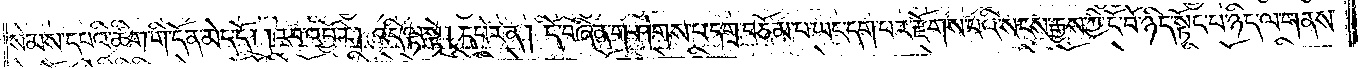སེམས་དཔའི་ཚིག་གི་དོན་མེད་དོ། །རབ་འབྱོར། འདི་ལྟ་སྟེ། དཔེར་ན། དེ་བཞིན་གཤེགས་པ་དགྲ་བཅོམ་པ་ཡང་དག་པར་རྫོགས་པའི་སངས་རྒྱས་ཀྱི་ངོ་བོ་ཉིད་སྟོང་པ་ཉིད་ལ་གནས་
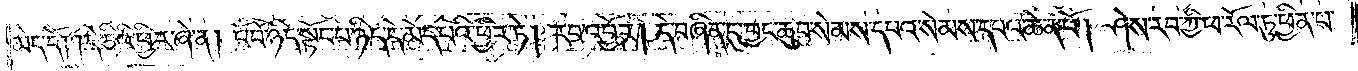མེད་དོ། །དེ་ཅིའི་ཕྱིར་ཞེ་ན། ངོ་བོ་ཉིད་སྟོང་པ་ཉིད་དེ་མེད་པའི་ཕྱིར་ཏེ། རབ་འབྱོར། དེ་བཞིན་དུ་བྱང་ཆུབ་སེམས་དཔའ་སེམས་དཔའ་ཆེན་པོ། ཤེས་རབ་ཀྱི་ཕ་རོལ་ཏུ་ཕྱིན་པ་
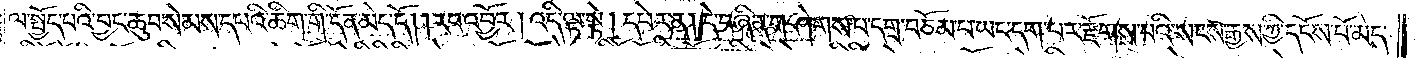ལ་སྤྱོད་པའི་བྱང་ཆུབ་སེམས་དཔའི་ཚིག་གི་དོན་མེད་དོ། །རབ་འབྱོར། འདི་ལྟ་སྟེ། དཔེར་ན། དེ་བཞིན་གཤེགས་པ་དགྲ་བཅོམ་པ་ཡང་དག་པར་རྫོགས་པའི་སངས་རྒྱས་ཀྱི་དངོས་པོ་མེད་
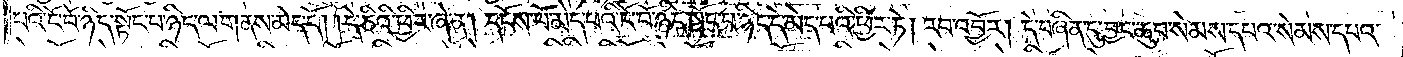པའི་ངོ་བོ་ཉིད་སྟོང་པ་ཉིད་ལ་གནས་མེད་དོ། །དེ་ཅིའི་ཕྱིར་ཞེ་ན། དངོས་པོ་མེད་པའི་ངོ་བོ་ཉིད་སྟོང་པ་ཉིད་དེ་མེད་པའི་ཕྱིར་ཏེ། རབ་འབྱོར། དེ་བཞིན་དུ་བྱང་ཆུབ་སེམས་དཔའ་སེམས་དཔའ་
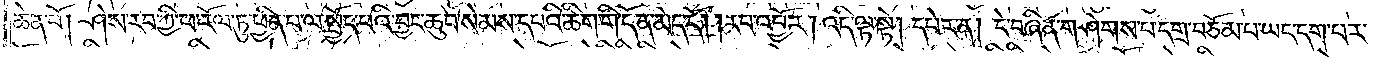ཆེན་པོ། ཤེས་རབ་ཀྱི་ཕ་རོལ་ཏུ་ཕྱིན་པ་ལ་སྤྱོད་པའི་བྱང་ཆུབ་སེམས་དཔའི་ཚིག་གི་དོན་མེད་དོ། །རབ་འབྱོར། འདི་ལྟ་སྟེ། དཔེར་ན། དེ་བཞིན་གཤེགས་པ་དགྲ་བཅོམ་པ་ཡང་དག་པར་
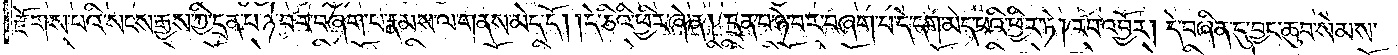རྫོགས་པའི་སངས་རྒྱས་ཀྱི་དྲན་པ་ཉེ་བར་བཞག་པ་རྣམས་ལ་གནས་མེད་དོ། །དེ་ཅིའི་ཕྱིར་ཞེ་ན། དྲན་པ་ཉེ་བར་བཞག་པ་དེ་དག་མེད་པའི་ཕྱིར་ཏེ། རབ་འབྱོར། དེ་བཞིན་དུ་བྱང་ཆུབ་སེམས་
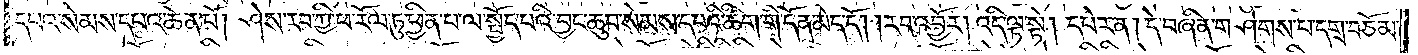དཔའ་སེམས་དཔའ་ཆེན་པོ། ཤེས་རབ་ཀྱི་ཕ་རོལ་ཏུ་ཕྱིན་པ་ལ་སྤྱོད་པའི་བྱང་ཆུབ་སེམས་དཔའི་ཚིག་གི་དོན་མེད་དོ། །རབ་འབྱོར། འདི་ལྟ་སྟེ། དཔེར་ན། དེ་བཞིན་གཤེགས་པ་དགྲ་བཅོམ་
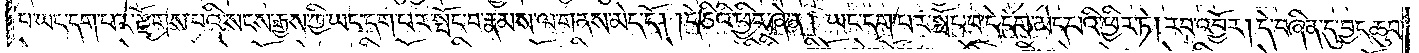པ་ཡང་དག་པར་རྫོགས་པའི་སངས་རྒྱས་ཀྱི་ཡང་དག་པར་སྤོང་བ་རྣམས་ལ་གནས་མེད་དོ། །དེ་ཅིའི་ཕྱིར་ཞེ་ན། ཡང་དག་པར་སྤོང་བ་དེ་དག་མེད་པའི་ཕྱིར་ཏེ། རབ་འབྱོར། དེ་བཞིན་དུ་བྱང་ཆུབ་
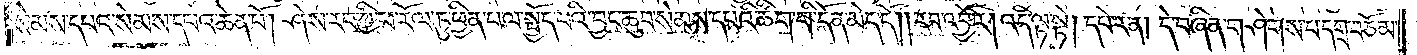སེམས་དཔའ་སེམས་དཔའ་ཆེན་པོ། ཤེས་རབ་ཀྱི་ཕ་རོལ་ཏུ་ཕྱིན་པ་ལ་སྤྱོད་པའི་བྱང་ཆུབ་སེམས་དཔའི་ཚིག་གི་དོན་མེད་དོ། །རབ་འབྱོར། འདི་ལྟ་སྟེ། དཔེར་ན། དེ་བཞིན་གཤེགས་པ་དགྲ་བཅོམ་
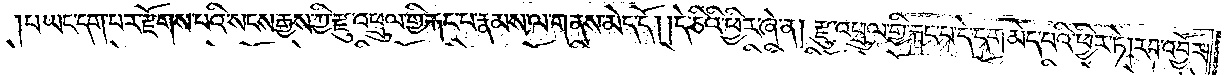པ་ཡང་དག་པར་རྫོགས་པའི་སངས་རྒྱས་ཀྱི་རྫུ་འཕྲུལ་གྱི་རྐང་པ་རྣམས་ལ་གནས་མེད་དོ། །དེ་ཅིའི་ཕྱིར་ཞེ་ན། རྫུ་འཕྲུལ་གྱི་རྐང་པ་དེ་དག་མེད་པའི་ཕྱིར་ཏེ། རབ་འབྱོར།
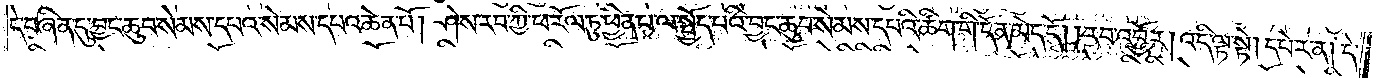དེ་བཞིན་དུ་བྱང་ཆུབ་སེམས་དཔའ་སེམས་དཔའ་ཆེན་པོ། ཤེས་རབ་ཀྱི་ཕ་རོལ་ཏུ་ཕྱིན་པ་ལ་སྤྱོད་པའི་བྱང་ཆུབ་སེམས་དཔའི་ཚིག་གི་དོན་མེད་དོ། །རབ་འབྱོར། འདི་ལྟ་སྟེ། དཔེར་ན། དེ་
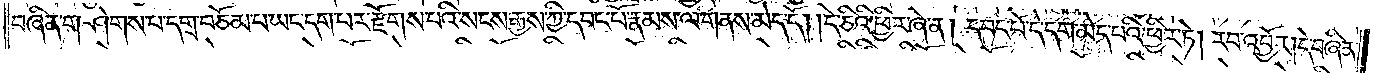བཞིན་གཤེགས་པ་དགྲ་བཅོམ་པ་ཡང་དག་པར་རྫོགས་པའི་སངས་རྒྱས་ཀྱི་དབང་པོ་རྣམས་ལ་གནས་མེད་དོ། །དེ་ཅིའི་ཕྱིར་ཞེ་ན། དབང་པོ་དེ་དག་མེད་པའི་ཕྱིར་ཏེ། རབ་འབྱོར། དེ་བཞིན་
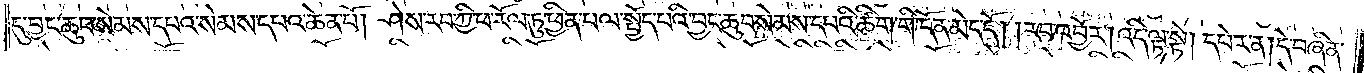དུ་བྱང་ཆུབ་སེམས་དཔའ་སེམས་དཔའ་ཆེན་པོ། ཤེས་རབ་ཀྱི་ཕ་རོལ་ཏུ་ཕྱིན་པ་ལ་སྤྱོད་པའི་བྱང་ཆུབ་སེམས་དཔའི་ཚིག་གི་དོན་མེད་དོ། །རབ་འབྱོར། འདི་ལྟ་སྟེ། དཔེར་ན། དེ་བཞིན་
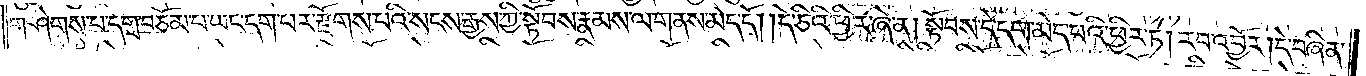གཤེགས་པ་དགྲ་བཅོམ་པ་ཡང་དག་པར་རྫོགས་པའི་སངས་རྒྱས་ཀྱི་སྟོབས་རྣམས་ལ་གནས་མེད་དོ། །དེ་ཅིའི་ཕྱིར་ཞེ་ན། སྟོབས་དེ་དག་མེད་པའི་ཕྱིར་ཏེ། རབ་འབྱོར། དེ་བཞིན་
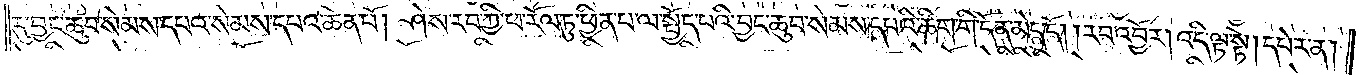དུ་བྱང་ཆུབ་སེམས་དཔའ་སེམས་དཔའ་ཆེན་པོ། ཤེས་རབ་ཀྱི་ཕ་རོལ་ཏུ་ཕྱིན་པ་ལ་སྤྱོད་པའི་བྱང་ཆུབ་སེམས་དཔའི་ཚིག་གི་དོན་མེད་དོ། །རབ་འབྱོར། འདི་ལྟ་སྟེ། དཔེར་ན།
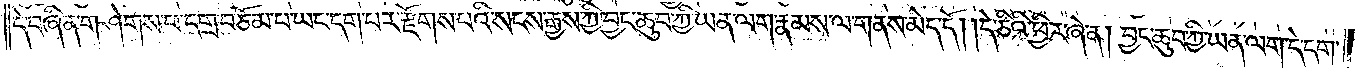དེ་བཞིན་གཤེགས་པ་དགྲ་བཅོམ་པ་ཡང་དག་པར་རྫོགས་པའི་སངས་རྒྱས་ཀྱི་བྱང་ཆུབ་ཀྱི་ཡན་ལག་རྣམས་ལ་གནས་མེད་དོ། །དེ་ཅིའི་ཕྱིར་ཞེ་ན། བྱང་ཆུབ་ཀྱི་ཡན་ལག་དེ་དག་
